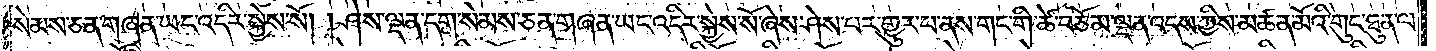སེམས་ཅན་གཞན་ཡང་འདིར་སྐྱེས་སོ། །ཤེས་ལྡན་དག་སེམས་ཅན་གཞན་ཡང་འདིར་སྐྱེས་སོ་ཞེས་ཤེས་པར་གྱུར་པ་ནས་གང་གི་ཚེ་བཅོམ་ལྡན་འདས་ཀྱིས་མཚན་མོའི་གུང་ཐུན་ལ་
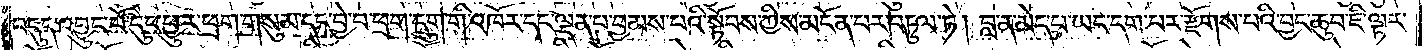བདུད་འབྱུང་པོ་དུང་ཕྱུར་ཕྲག་གསུམ་དང་བྱེ་བ་ཕྲག་དྲུག་གི་འཁོར་དང་ལྡན་པ་བྱམས་པའི་སྟོབས་ཀྱིས་མངོན་པར་བཏུལ་ཏེ། བླ་ན་མེད་པ་ཡང་དག་པར་རྫོགས་པའི་བྱང་ཆུབ་ཇི་ལྟར་
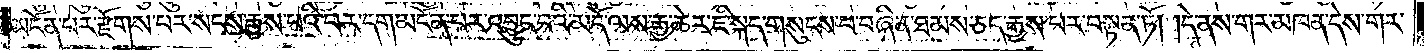མངོན་པར་རྫོགས་པར་སངས་རྒྱས་པའི་བར་དག་མངོན་པར་འབྱུང་བའི་མདོ་ལས་རྒྱ་ཆེར་ཇི་སྐད་གསུངས་པ་བཞིན་ཐམས་ཅད་རྒྱས་པར་བསྟན་ཏོ། །དེ་ནས་གར་མཁན་དེས་གར་
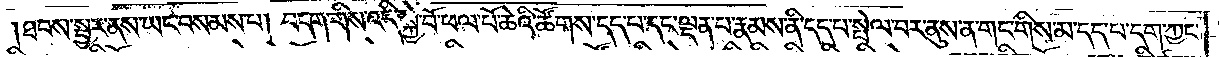ཐབས་སྦྱར་ནས་ཡང་བསམས་པ། བདག་གིས་འདི་སྐྱེ་བོ་ཕལ་པོ་ཆེའི་ཚོགས་དད་པ་དང་ལྡན་པ་རྣམས་ནི་དད་པ་སྤེལ་བར་ནུས་ན་གང་གིས་མ་དད་པ་དག་ཀྱང་
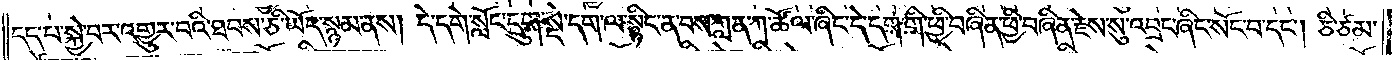དད་པ་སྐྱེ་བར་འགྱུར་བའི་ཐབས་ཅི་ཡོད་སྙམ་ནས། དེ་དགེ་སློང་དྲུག་སྡེ་དག་ལ་སྙིང་ན་བས་ཀླན་ཀ་ཚོལ་ཞིང་དེ་དག་གི་ཕྱི་བཞིན་ཕྱི་བཞིན་རྗེས་སུ་འབྲང་ཞིང་སོང་བ་དང༌། ཅི་ཙམ་
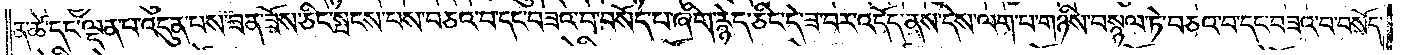ན་ཚེ་དང་ལྡན་པ་འདུན་པས་ཟན་ཟོས་ཅིང་སྤངས་པས་བཅའ་བ་དང་བཟའ་བ་བསོད་པ་ཞིག་རྙེད་ཅིང་དེ་ཟ་བར་འདོད་ནས་དེས་ལག་པ་གཉིས་བསྙལ་ཏེ་བཅའ་བ་དང་བཟའ་བ་བསོད་
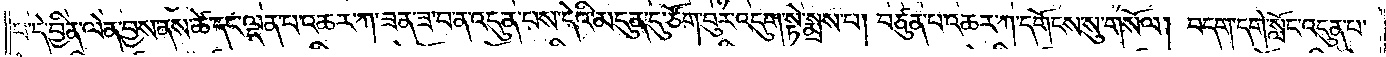པ་དེ་བྱིན་ལེན་བྱས་ནས་ཚེ་དང་ལྡན་པ་འཆར་ཀ་ཟན་ཟ་བ་ན་འདུན་པས་དེའི་མདུན་དུ་ཙོག་བུར་འདུག་སྟེ་སྨྲས་པ། བཙུན་པ་འཆར་ཀ་དགོངས་སུ་གསོལ། བདག་དགེ་སློང་འདུན་པ་
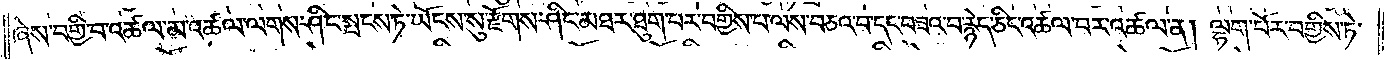ཞེས་བགྱི་བ་འཚལ་མ་འཚལ་ལགས་ཤིང་སྤངས་ཏེ་ཡོངས་སུ་རྫོགས་ཤིང་མཐར་ཐུག་པར་བགྱིས་པ་ལས་བཅའ་བ་དང་བཟའ་བ་རྙེད་ཅིང་འཚལ་བར་འཚལ་ན། ལྷག་པོར་བགྱིས་ཏེ་
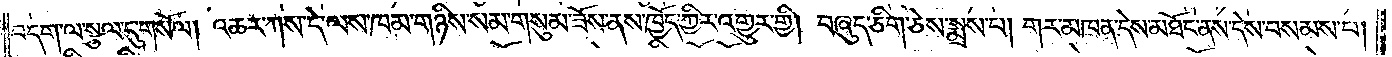བདག་ལ་སྩལ་དུ་གསོལ། འཆར་ཀས་དེ་ལས་ཁམ་གཉིས་སམ་གསུམ་ཟོས་ནས་ཁྱོད་ཀྱིར་འགྱུར་གྱི། བཞུད་ཅིག་ཅེས་སྨྲས་པ། གར་མཁན་དེས་མཐོང་ནས་དེས་བསམས་པ།
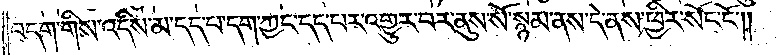བདག་གིས་འདིས་མ་དད་པ་དག་ཀྱང་དད་པར་འགྱུར་བར་ནུས་སོ་སྙམ་ནས་དེ་ནས་ཕྱིར་སོང་ངོ༌༎
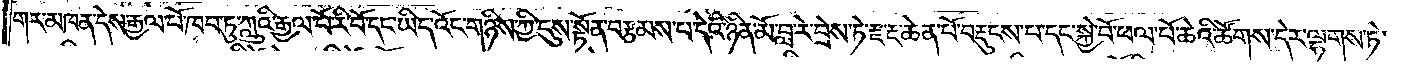གར་མཁན་དེས་རྒྱལ་པོ་ཁབ་ཏུ་ཀླུའི་རྒྱལ་པོ་རི་བོ་དང་ཡིད་འོང་གཉིས་ཀྱི་དུས་སྟོན་བརྩམས་པ་དེའི་ཉིན་མོ་བླ་རེ་བྲེས་ཏེ་རྫ་རྔ་ཆེན་པོ་བརྡུངས་པ་དང་སྐྱེ་བོ་ཕལ་པོ་ཆེའི་ཚོགས་དེར་ལྷགས་ཏེ་
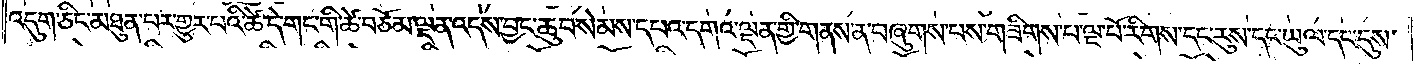འདུག་ཅིང་མཐུན་པར་གྱུར་པའི་ཚེ་དེ་གང་གི་ཚེ་བཅོམ་ལྡན་འདས་བྱང་ཆུབ་སེམས་དཔའ་དགའ་ལྡན་གྱི་གནས་ན་བཞུགས་པས་གཟིགས་པ་ལྔ་པོ་རིགས་དང་རུས་དང་ཡུལ་དང་དུས་
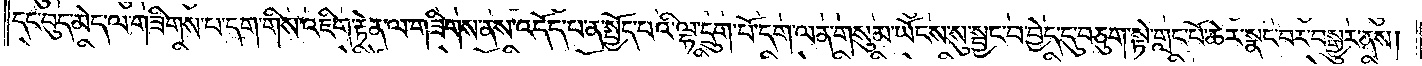དང་བུད་མེད་ལ་གཟིགས་པ་དག་གིས་འཇིག་རྟེན་ལ་གཟིགས་ནས་འདོད་པ་ན་སྤྱོད་པའི་ལྷ་དྲུག་པོ་དག་ལན་གསུམ་ཡོངས་སུ་སྦྱང་བ་བྱེད་དུ་བཅུག་སྟེ་གླང་པོ་ཆེར་སྣང་བར་བསྒྱུར་ནས།
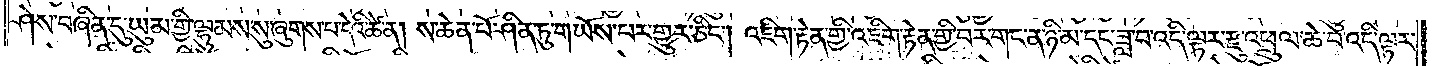ཤེས་བཞིན་དུ་ཡུམ་གྱི་ལྷུམས་སུ་ཞུགས་པ་དེའི་ཚེ་ན། ས་ཆེན་པོ་ཤིན་ཏུ་གཡོས་པར་གྱུར་ཅིང༌། འཇིག་རྟེན་གྱི་འཇིག་རྟེན་གྱི་བར་གང་ན་ཉི་མ་དང་ཟླ་བ་འདི་ལྟར་རྫུ་འཕྲུལ་ཆེ་བ་འདི་ལྟར་
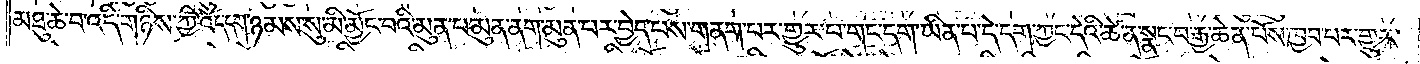མཐུ་ཆེ་བ་འདི་གཉིས་ཀྱི་འོད་དག་ཉམས་སུ་མི་མྱོང་བའི་མུན་པ་མུན་ནག་མུན་པར་བྱེད་པས་གནག་པར་གྱུར་པ་གང་དག་ཡིན་པ་དེ་དག་ཀྱང་དེའི་ཚེ་ན་སྣང་བ་རྒྱ་ཆེན་པོས་ཁྱབ་པར་གྱུར་
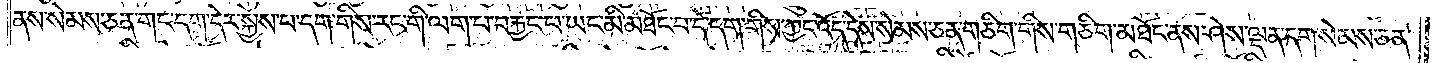ནས་སེམས་ཅན་གང་དག་དེར་སྐྱེས་པ་དག་གིས་རང་གི་ལག་པ་བརྐྱང་པ་ཡང་མི་མཐོང་བ་དེ་དག་གིས་ཀྱང་འོད་དེས་སེམས་ཅན་གཅིག་གིས་གཅིག་མཐོང་ནས་ཤེས་ལྡན་དག་སེམས་ཅན་
